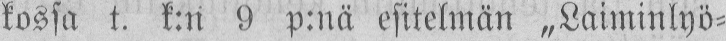kossa t. k:n 9 p:nä esitelmän „Laiminlyö-
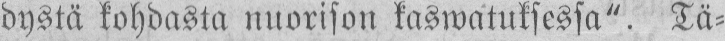dystä kohdasta nuorison kaswatuksessa". Tä-
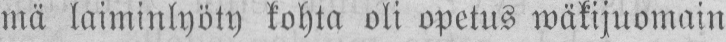mä laiminlyöty kohta oli opetus wäkijuomain
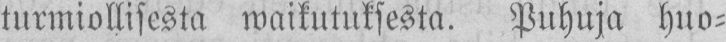turmiollisesta waikutuksesta. Puhuja huo-
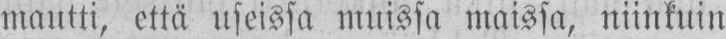mautti, että useissa muissa maissa, niinkuin
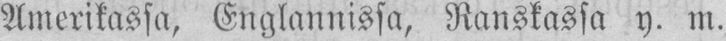Amerikassa, Englannissa, Ranskassa y. m.
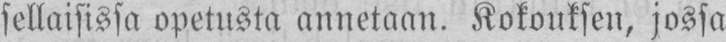sellaisissa opetusta annetaan. Kokouksen, jossa
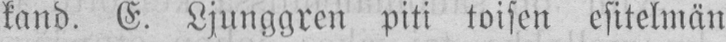kand. E. Ljunggren piti toisen esitelmän
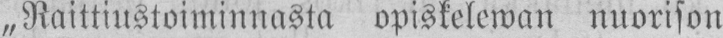„Raittiustoiminnasta opiskelewan nuorison
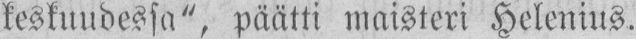keskuudessa", päätti maisteri Helenius.
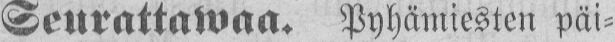— Seurattawaa. Pyhämiesten päi-
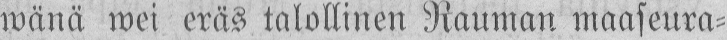wänä wei eräs talollinen Rauman maaseura-
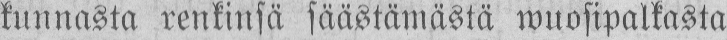kunnasta renkinsä säästämästä wuosipalkasta
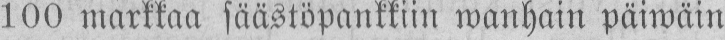100 markkaa säästöpankkiin wanhain päiwäin
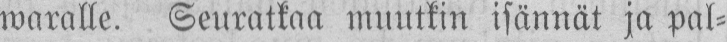waralle. Seuratkaa muutkin isännät ja pal-
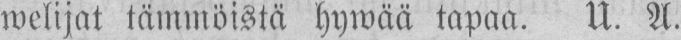welijat tämmöistä hywää tapaa. U. A.
